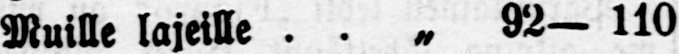Muille lajeille „ 92— 110
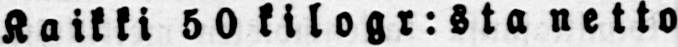Kaikki 50 kilogr:sta netto
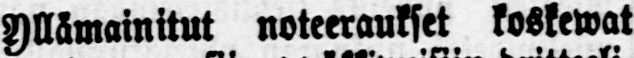Yllämainitut noteeraukset koskewat
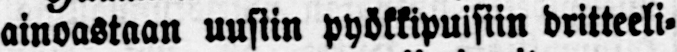ainoastaan uusiin pyökkipuisiin dritteeli-
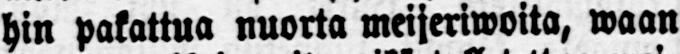hin pakattua nuorta meijerwoita, waan
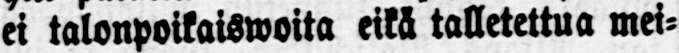ei talonpoikaiswoita eikä talletettua mei-
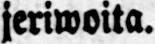jeriwoita.
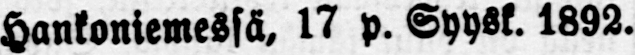Hankoniemessä, 17 p. Syysk. 1892.
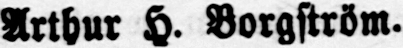Arthur H. Borgström.
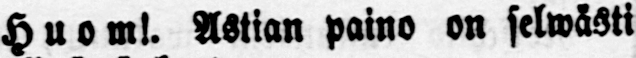Huoml. Astian paino on selwästi
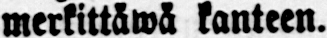merkittäwä kanteen.
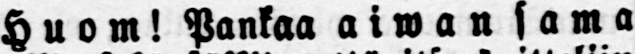Huom! Pankaa aiwan sama
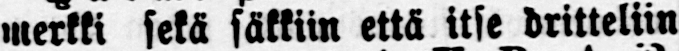merkki sekä säkkiin että itse dritteliin
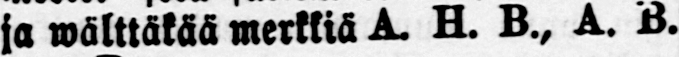ja wälttäkää merkkiä A. H. B., A. B.
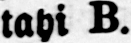tahi B.
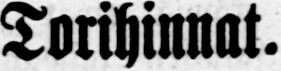Torihinnat.
